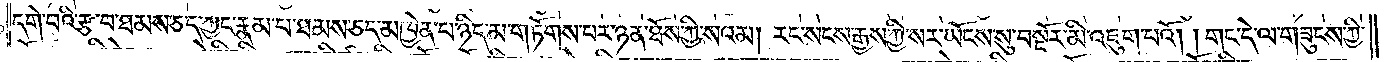དགེ་བའི་རྩ་བ་ཐམས་ཅད་ཀྱང་རྣམ་པ་ཐམས་ཅད་མཁྱེན་པ་ཉིད་མ་གཏོགས་པར་ཉན་ཐོས་ཀྱི་སའམ། རང་སངས་རྒྱས་ཀྱི་སར་ཡོངས་སུ་བསྔོར་མི་འཇུག་པའོ། །གང་དེ་ལ་གཟུངས་ཀྱི་
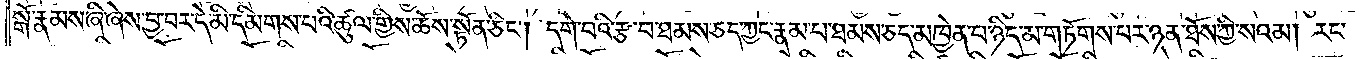སྒོ་རྣམས་ཞི་ཞེས་བྱ་བར་དེ་མི་དམིགས་པའི་ཚུལ་གྱིས་ཆོས་སྟོན་ཅིང༌། དགེ་བའི་རྩ་བ་ཐམས་ཅད་ཀྱང་རྣམ་པ་ཐམས་ཅད་མཁྱེན་པ་ཉིད་མ་གཏོགས་པར་ཉན་ཐོས་ཀྱི་སའམ། རང་
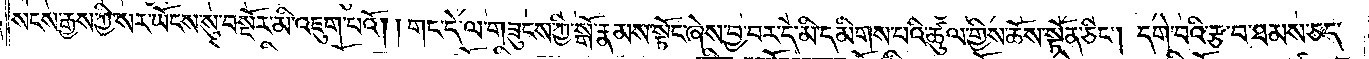སངས་རྒྱས་ཀྱི་སར་ཡོངས་སུ་བསྔོར་མི་འཇུག་པའོ། །གང་དེ་ལ་གཟུངས་ཀྱི་སྒོ་རྣམས་སྟོང་ཞེས་བྱ་བར་དེ་མི་དམིགས་པའི་ཚུལ་གྱིས་ཆོས་སྟོན་ཅིང༌། དགེ་བའི་རྩ་བ་ཐམས་ཅད་
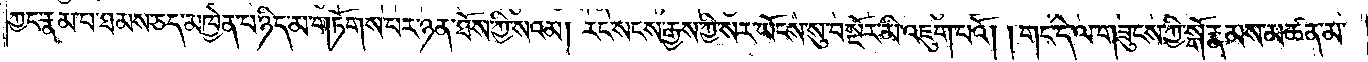ཀྱང་རྣམ་པ་ཐམས་ཅད་མཁྱེན་པ་ཉིད་མ་གཏོགས་པར་ཉན་ཐོས་ཀྱི་སའམ། རང་སངས་རྒྱས་ཀྱི་སར་ཡོངས་སུ་བསྔོར་མི་འཇུག་པའོ། །གང་དེ་ལ་གཟུངས་ཀྱི་སྒོ་རྣམས་མཚན་མ་
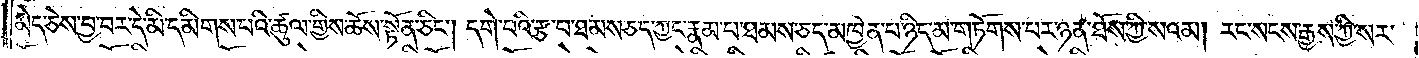མེད་ཅེས་བྱ་བར་དེ་མི་དམིགས་པའི་ཚུལ་གྱིས་ཆོས་སྟོན་ཅིང༌། དགེ་བའི་རྩ་བ་ཐམས་ཅད་ཀྱང་རྣམ་པ་ཐམས་ཅད་མཁྱེན་པ་ཉིད་མ་གཏོགས་པར་ཉན་ཐོས་ཀྱི་སའམ། རང་སངས་རྒྱས་ཀྱི་སར་
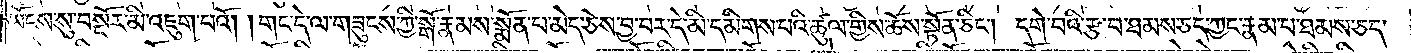ཡོངས་སུ་བསྔོར་མི་འཇུག་པའོ། །གང་དེ་ལ་གཟུངས་ཀྱི་སྒོ་རྣམས་སྨོན་པ་མེད་ཅེས་བྱ་བར་དེ་མི་དམིགས་པའི་ཚུལ་གྱིས་ཆོས་སྟོན་ཅིང༌། དགེ་བའི་རྩ་བ་ཐམས་ཅད་ཀྱང་རྣམ་པ་ཐམས་ཅད་
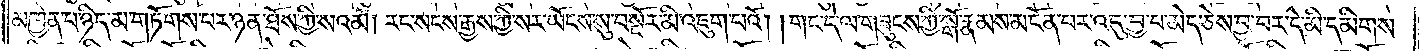མཁྱེན་པ་ཉིད་མ་གཏོགས་པར་ཉན་ཐོས་ཀྱི་སའམ། རང་སངས་རྒྱས་ཀྱི་སར་ཡོངས་སུ་བསྔོར་མི་འཇུག་པའོ། །གང་དེ་ལ་གཟུངས་ཀྱི་སྒོ་རྣམས་མངོན་པར་འདུ་བྱ་བ་མེད་ཅེས་བྱ་བར་དེ་མི་དམིགས་
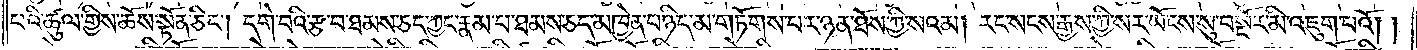པའི་ཚུལ་གྱིས་ཆོས་སྟོན་ཅིང༌། དགེ་བའི་རྩ་བ་ཐམས་ཅད་ཀྱང་རྣམ་པ་ཐམས་ཅད་མཁྱེན་པ་ཉིད་མ་གཏོགས་པར་ཉན་ཐོས་ཀྱི་སའམ། རང་སངས་རྒྱས་ཀྱི་སར་ཡོངས་སུ་བསྔོར་མི་འཇུག་པའོ། །
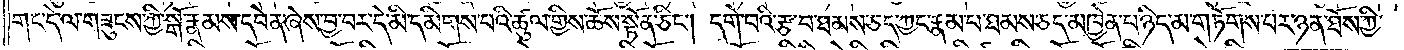གང་དེ་ལ་གཟུངས་ཀྱི་སྒོ་རྣམས་དབེན་ཞེས་བྱ་བར་དེ་མི་དམིགས་པའི་ཚུལ་གྱིས་ཆོས་སྟོན་ཅིང༌། དགེ་བའི་རྩ་བ་ཐམས་ཅད་ཀྱང་རྣམ་པ་ཐམས་ཅད་མཁྱེན་པ་ཉིད་མ་གཏོགས་པར་ཉན་ཐོས་ཀྱི་
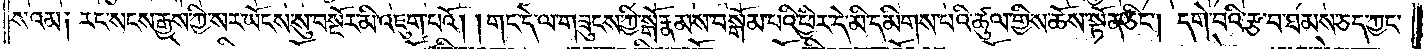སའམ༑ རང་སངས་རྒྱས་ཀྱི་སར་ཡོངས་སུ་བསྔོར་མི་འཇུག་པའོ། །གང་དེ་ལ་གཟུངས་ཀྱི་སྒོ་རྣམས་བསྒོམ་པའི་ཕྱིར་དེ་མི་དམིགས་པའི་ཚུལ་གྱིས་ཆོས་སྟོན་ཅིང༌། དགེ་བའི་རྩ་བ་ཐམས་ཅད་ཀྱང་
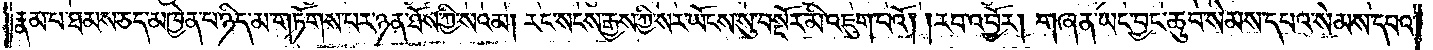རྣམ་པ་ཐམས་ཅད་མཁྱེན་པ་ཉིད་མ་གཏོགས་པར་ཉན་ཐོས་ཀྱི་སའམ། རང་སངས་རྒྱས་ཀྱི་སར་ཡོངས་སུ་བསྔོར་མི་འཇུག་པའོ། །རབ་འབྱོར། གཞན་ཡང་བྱང་ཆུབ་སེམས་དཔའ་སེམས་དཔའ་
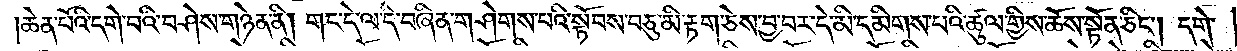ཆེན་པོའི་དགེ་བའི་བཤེས་གཉེན་ནི། གང་དེ་ལ་དེ་བཞིན་གཤེགས་པའི་སྟོབས་བཅུ་མི་རྟག་ཅེས་བྱ་བར་དེ་མི་དམིགས་པའི་ཚུལ་གྱིས་ཆོས་སྟོན་ཅིང༌། དགེ་
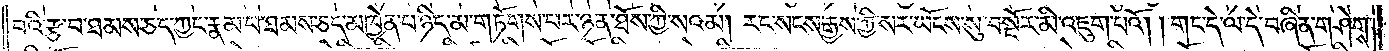བའི་རྩ་བ་ཐམས་ཅད་ཀྱང་རྣམ་པ་ཐམས་ཅད་མཁྱེན་པ་ཉིད་མ་གཏོགས་པར་ཉན་ཐོས་ཀྱི་སའམ། རང་སངས་རྒྱས་ཀྱི་སར་ཡོངས་སུ་བསྔོར་མི་འཇུག་པའོ། །གང་དེ་ལ་དེ་བཞིན་གཤེགས་
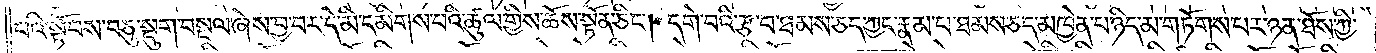པའི་སྟོབས་བཅུ་སྡུག་བསྔལ་ཞེས་བྱ་བར་དེ་མི་དམིགས་པའི་ཚུལ་གྱིས་ཆོས་སྟོན་ཅིང༌། དགེ་བའི་རྩ་བ་ཐམས་ཅད་ཀྱང་རྣམ་པ་ཐམས་ཅད་མཁྱེན་པ་ཉིད་མ་གཏོགས་པར་ཉན་ཐོས་ཀྱི་
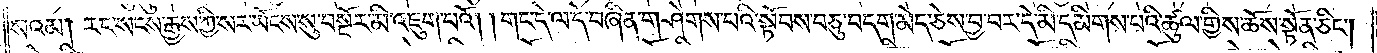སའམ། རང་སངས་རྒྱས་ཀྱི་སར་ཡོངས་སུ་བསྔོར་མི་འཇུག་པའོ། །གང་དེ་ལ་དེ་བཞིན་གཤེགས་པའི་སྟོབས་བཅུ་བདག་མེད་ཅེས་བྱ་བར་དེ་མི་དམིགས་པའི་ཚུལ་གྱིས་ཆོས་སྟོན་ཅིང༌།
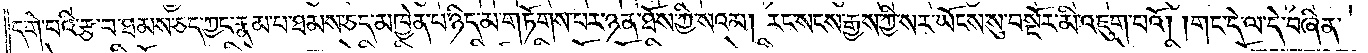དགེ་བའི་རྩ་བ་ཐམས་ཅད་ཀྱང་རྣམ་པ་ཐམས་ཅད་མཁྱེན་པ་ཉིད་མ་གཏོགས་པར་ཉན་ཐོས་ཀྱི་སའམ། རང་སངས་རྒྱས་ཀྱི་སར་ཡོངས་སུ་བསྔོར་མི་འཇུག་པའོ། །གང་དེ་ལ་དེ་བཞིན་
